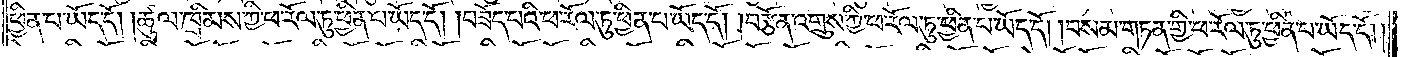ཕྱིན་པ་ཡོད་དོ། །ཚུལ་ཁྲིམས་ཀྱི་ཕ་རོལ་ཏུ་ཕྱིན་པ་ཡོད་དོ། །བཟོད་པའི་ཕ་རོལ་ཏུ་ཕྱིན་པ་ཡོད་དོ། །བརྩོན་འགྲུས་ཀྱི་ཕ་རོལ་ཏུ་ཕྱིན་པ་ཡོད་དོ། །བསམ་གཏན་གྱི་ཕ་རོལ་ཏུ་ཕྱིན་པ་ཡོད་དོ། །
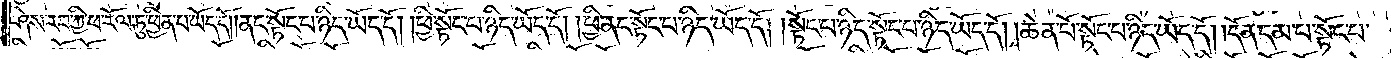ཤེས་རབ་ཀྱི་ཕ་རོལ་ཏུ་ཕྱིན་པ་ཡོད་དོ། །ནང་སྟོང་པ་ཉིད་ཡོད་དོ། །ཕྱི་སྟོང་པ་ཉིད་ཡོད་དོ། །ཕྱི་ནང་སྟོང་པ་ཉིད་ཡོད་དོ། །སྟོང་པ་ཉིད་སྟོང་པ་ཉིད་ཡོད་དོ། །ཆེན་པོ་སྟོང་པ་ཉིད་ཡོད་དོ། །དོན་དམ་པ་སྟོང་པ་
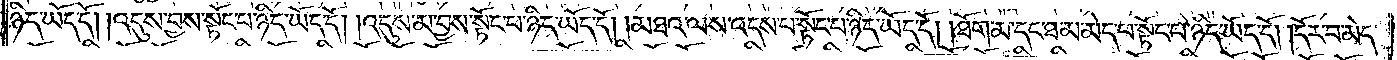ཉིད་ཡོད་དོ། །འདུས་བྱས་སྟོང་པ་ཉིད་ཡོད་དོ། །འདུས་མ་བྱས་སྟོང་པ་ཉིད་ཡོད་དོ། །མཐའ་ལས་འདས་པ་སྟོང་པ་ཉིད་ཡོད་དོ། །ཐོག་མ་དང་ཐ་མ་མེད་པ་སྟོང་པ་ཉིད་ཡོད་དོ། །དོར་བ་མེད་
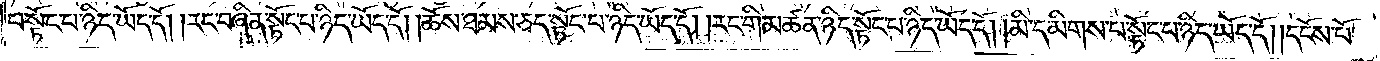པ་སྟོང་པ་ཉིད་ཡོད་དོ། །རང་བཞིན་སྟོང་པ་ཉིད་ཡོད་དོ། །ཆོས་ཐམས་ཅད་སྟོང་པ་ཉིད་ཡོད་དོ། །རང་གི་མཚན་ཉིད་སྟོང་པ་ཉིད་ཡོད་དོ། །མི་དམིགས་པ་སྟོང་པ་ཉིད་ཡོད་དོ། །དངོས་པོ་
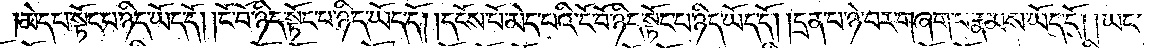མེད་པ་སྟོང་པ་ཉིད་ཡོད་དོ། །ངོ་བོ་ཉིད་སྟོང་པ་ཉིད་ཡོད་དོ། །དངོས་པོ་མེད་པའི་ངོ་བོ་ཉིད་སྟོང་པ་ཉིད་ཡོད་དོ། །དྲན་པ་ཉེ་བར་གཞག་པ་རྣམས་ཡོད་དོ། །ཡང་
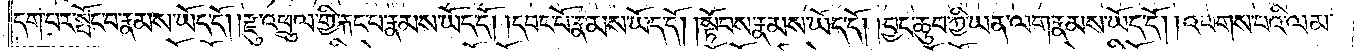དག་པར་སྤོང་བ་རྣམས་ཡོད་དོ། །རྫུ་འཕྲུལ་གྱི་རྐང་པ་རྣམས་ཡོད་དོ། །དབང་པོ་རྣམས་ཡོད་དོ། །སྟོབས་རྣམས་ཡོད་དོ། །བྱང་ཆུབ་ཀྱི་ཡན་ལག་རྣམས་ཡོད་དོ། །འཕགས་པའི་ལམ་
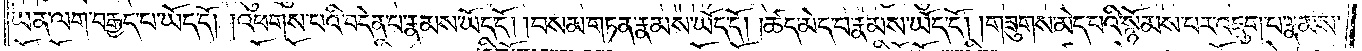ཡན་ལག་བརྒྱད་པ་ཡོད་དོ། །འཕགས་པའི་བདེན་པ་རྣམས་ཡོད་དོ། །བསམ་གཏན་རྣམས་ཡོད་དོ། །ཚད་མེད་པ་རྣམས་ཡོད་དོ། །གཟུགས་མེད་པའི་སྙོམས་པར་འཇུག་པ་རྣམས་
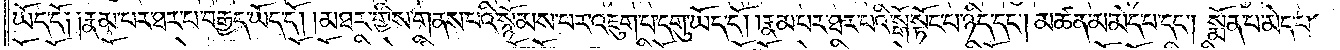ཡོད་དོ༑ ༑རྣམ་པར་ཐར་པ་བརྒྱད་ཡོད་དོ། །མཐར་གྱིས་གནས་པའི་སྙོམས་པར་འཇུག་པ་དགུ་ཡོད་དོ། །རྣམ་པར་ཐར་པའི་སྒོ་སྟོང་པ་ཉིད་དང༌། མཚན་མ་མེད་པ་དང༌། སྨོན་པ་མེད་པ་
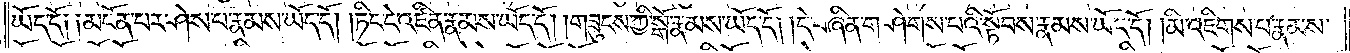ཡོད་དོ༑ ༑མངོན་པར་ཤེས་པ་རྣམས་ཡོད་དོ། །ཏིང་ངེ་འཛིན་རྣམས་ཡོད་དོ། །གཟུངས་ཀྱི་སྒོ་རྣམས་ཡོད་དོ། །དེ་བཞིན་གཤེགས་པའི་སྟོབས་རྣམས་ཡོད་དོ། །མི་འཇིགས་པ་རྣམས་
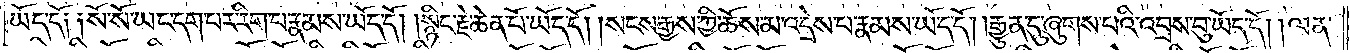ཡོད་དོ༑ ༑སོ་སོ་ཡང་དག་པར་རིག་པ་རྣམས་ཡོད་དོ། །སྙིང་རྗེ་ཆེན་པོ་ཡོད་དོ། །སངས་རྒྱས་ཀྱི་ཆོས་མ་འདྲེས་པ་རྣམས་ཡོད་དོ། །རྒྱུན་དུ་ཞུགས་པའི་འབྲས་བུ་ཡོད་དོ། །ལན་
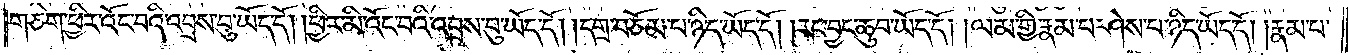གཅིག་ཕྱིར་འོང་བའི་འབྲས་བུ་ཡོད་དོ། །ཕྱིར་མི་འོང་བའི་འབྲས་བུ་ཡོད་དོ། །དགྲ་བཅོམ་པ་ཉིད་ཡོད་དོ། །རང་བྱང་ཆུབ་ཡོད་དོ། །ལམ་གྱི་རྣམ་པ་ཤེས་པ་ཉིད་ཡོད་དོ། །རྣམ་པ་
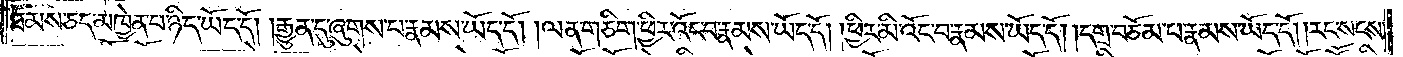ཐམས་ཅད་མཁྱེན་པ་ཉིད་ཡོད་དོ། །རྒྱུན་དུ་ཞུགས་པ་རྣམས་ཡོད་དོ། །ལན་གཅིག་ཕྱིར་འོང་བ་རྣམས་ཡོད་དོ། །ཕྱིར་མི་འོང་བ་རྣམས་ཡོད་དོ། །དགྲ་བཅོམ་པ་རྣམས་ཡོད་དོ། །རང་སངས་
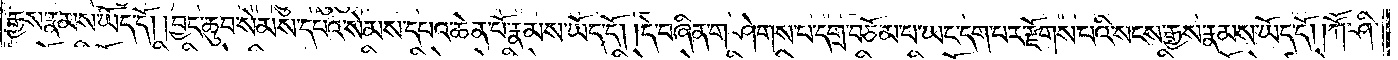རྒྱས་རྣམས་ཡོད་དོ། །བྱང་ཆུབ་སེམས་དཔའ་སེམས་དཔའ་ཆེན་པོ་རྣམས་ཡོད་དོ། །དེ་བཞིན་གཤེགས་པ་དགྲ་བཅོམ་པ་ཡང་དག་པར་རྫོགས་པའི་སངས་རྒྱས་རྣམས་ཡོད་དོ། །ཀཽ་ཤི་
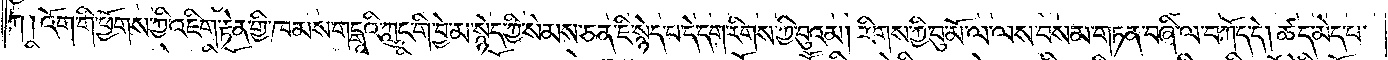ཀ། འོག་གི་ཕྱོགས་ཀྱི་འཇིག་རྟེན་གྱི་ཁམས་གངྒཱའི་ཀླུང་གི་བྱེ་མ་སྙེད་ཀྱི་སེམས་ཅན་ཇི་སྙེད་པ་དེ་དག་རིགས་ཀྱི་བུའམ། རིགས་ཀྱི་བུ་མོ་ལ་ལས་བསམ་གཏན་བཞི་ལ་བཀོད་དེ། ཚད་མེད་པ་
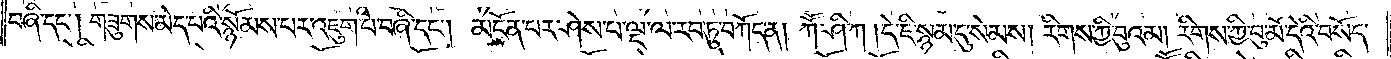བཞི་དང༌། གཟུགས་མེད་པའི་སྙོམས་པར་འཇུག་པ་བཞི་དང༌། མངོན་པར་ཤེས་པ་ལྔ་ལ་རབ་ཏུ་བཀོད་ན། ཀཽ་ཤི་ཀ། དེ་ཇི་སྙམ་དུ་སེམས། རིགས་ཀྱི་བུའམ། རིགས་ཀྱི་བུ་མོ་དེའི་བསོད་
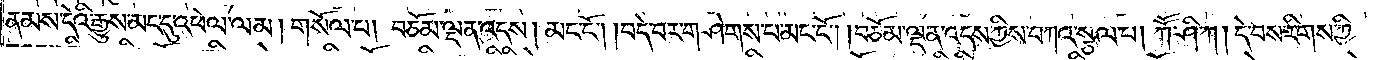ནམས་དེའི་རྒྱུས་མང་དུ་འཕེལ་ལམ། གསོལ་པ། བཅོམ་ལྡན་འདས། མང་ངོ༌། །བདེ་བར་གཤེགས་པ་མང་ངོ༌། །བཅོམ་ལྡན་འདས་ཀྱིས་བཀའ་སྩལ་བ། ཀཽ་ཤི་ཀ། དེ་བས་རིགས་ཀྱི་
